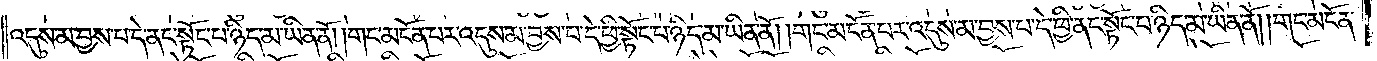འདུས་མ་བྱས་པ་དེ་ནང་སྟོང་པ་ཉིད་མ་ཡིན་ནོ། །གང་མངོན་པར་འདུས་མ་བྱས་པ་དེ་ཕྱི་སྟོང་པ་ཉིད་མ་ཡིན་ནོ། །གང་མངོན་པར་འདུས་མ་བྱས་པ་དེ་ཕྱི་ནང་སྟོང་པ་ཉིད་མ་ཡིན་ནོ། །གང་མངོན་
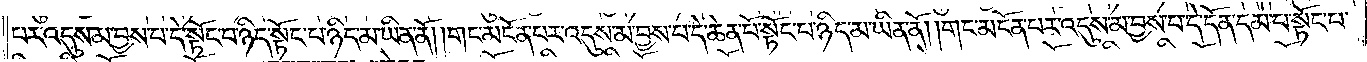པར་འདུས་མ་བྱས་པ་དེ་སྟོང་པ་ཉིད་སྟོང་པ་ཉིད་མ་ཡིན་ནོ། །གང་མངོན་པར་འདུས་མ་བྱས་པ་དེ་ཆེན་པོ་སྟོང་པ་ཉིད་མ་ཡིན་ནོ། །གང་མངོན་པར་འདུས་མ་བྱས་པ་དེ་དོན་དམ་པ་སྟོང་པ་
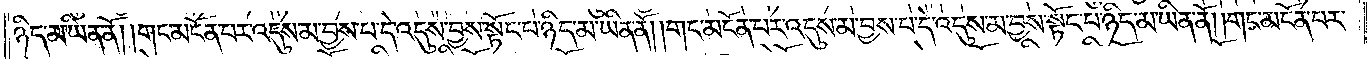ཉིད་མ་ཡིན་ནོ། །གང་མངོན་པར་འདུས་མ་བྱས་པ་དེ་འདུས་བྱས་སྟོང་པ་ཉིད་མ་ཡིན་ནོ། །གང་མངོན་པར་འདུས་མ་བྱས་པ་དེ་འདུས་མ་བྱས་སྟོང་པ་ཉིད་མ་ཡིན་ནོ། །གང་མངོན་པར་འདུས་མ་
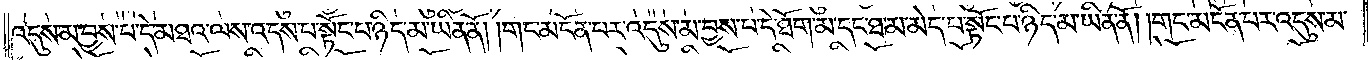བྱས་པ་དེ་མཐའ་ལས་འདས་པ་སྟོང་པ་ཉིད་མ་ཡིན་ནོ། །གང་མངོན་པར་འདུས་མ་བྱས་པ་དེ་ཐོག་མ་དང་ཐ་མ་མེད་པའི་སྟོང་པ་ཉིད་མ་ཡིན་ནོ། །གང་མངོན་པར་
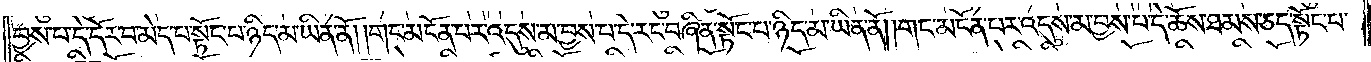འདུས་མ་བྱས་པ་དེ་དོར་བ་མེད་པ་སྟོང་པ་ཉིད་མ་ཡིན་ནོ། །གང་མངོན་པར་འདུས་མ་བྱས་པ་དེ་རང་བཞིན་སྟོང་པ་ཉིད་མ་ཡིན་ནོ། །གང་མངོན་པར་འདུས་མ་བྱས་པ་དེ་ཆོས་ཐམས་ཅད་སྟོང་པ་
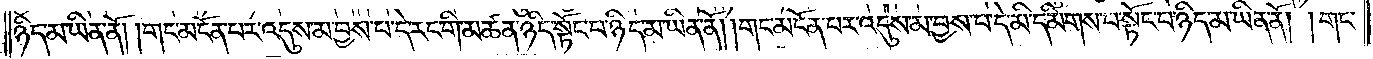ཉིད་མ་ཡིན་ནོ། །གང་མངོན་པར་འདུས་མ་བྱས་པ་དེ་རང་གི་མཚན་ཉིད་སྟོང་པ་ཉིད་མ་ཡིན་ནོ། །གང་མངོན་པར་འདུས་མ་བྱས་པ་དེ་མི་དམིགས་པ་སྟོང་པ་ཉིད་མ་ཡིན་ནོ། །གང་
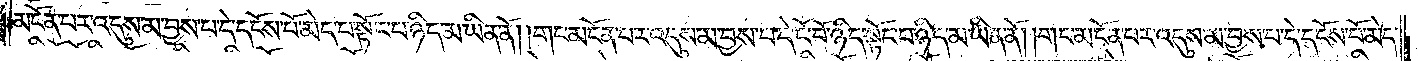མངོན་པར་འདུས་མ་བྱས་པ་དེ་དངོས་པོ་མེད་པ་སྟོང་པ་ཉིད་མ་ཡིན་ནོ། །གང་མངོན་པར་འདུས་མ་བྱས་པ་དེ་ངོ་བོ་ཉིད་སྟོང་པ་ཉིད་མ་ཡིན་ནོ། །གང་མངོན་པར་འདུས་མ་བྱས་པ་དེ་དངོས་པོ་མེད་
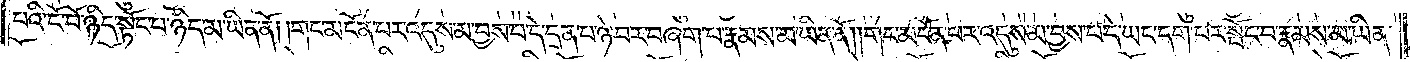པའི་ངོ་བོ་ཉིད་སྟོང་པ་ཉིད་མ་ཡིན་ནོ། །གང་མངོན་པར་འདུས་མ་བྱས་པ་དེ་དྲན་པ་ཉེ་བར་བཞག་པ་རྣམས་མ་ཡིན་ནོ། །གང་མངོན་པར་འདུས་མ་བྱས་པ་དེ་ཡང་དག་པར་སྤོང་བ་རྣམས་མ་ཡིན་
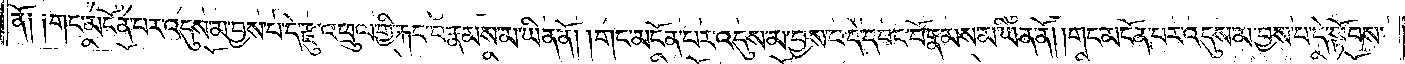ནོ༑༑གང་མངོན་པར་འདུས་མ་བྱས་པ་དེ་རྫུ་འཕྲུལ་གྱི་རྐང་པ་རྣམས་མ་ཡིན་ནོ། །གང་མངོན་པར་འདུས་མ་བྱས་པ་དེ་དབང་པོ་རྣམས་མ་ཡིན་ནོ། །གང་མངོན་པར་འདུས་མ་བྱས་པ་དེ་སྟོབས་
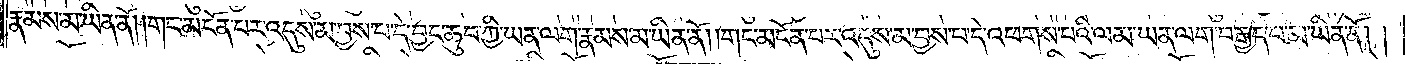རྣམས་མ་ཡིན་ནོ། །གང་མངོན་པར་འདུས་མ་བྱས་པ་དེ་བྱང་ཆུབ་ཀྱི་ཡན་ལག་རྣམས་མ་ཡིན་ནོ། །གང་མངོན་པར་འདུས་མ་བྱས་པ་དེ་འཕགས་པའི་ལམ་ཡན་ལག་བརྒྱད་པ་མ་ཡིན་ནོ། །
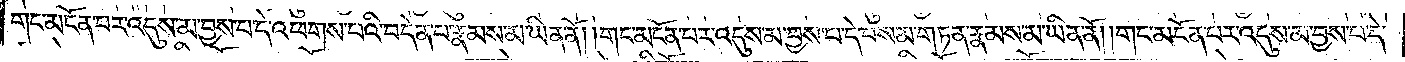གང་མངོན་པར་འདུས་མ་བྱས་པ་དེ་འཕགས་པའི་བདེན་པ་རྣམས་མ་ཡིན་ནོ། །གང་མངོན་པར་འདུས་མ་བྱས་པ་དེ་བསམ་གཏན་རྣམས་མ་ཡིན་ནོ། །གང་མངོན་པར་འདུས་མ་བྱས་པ་དེ་
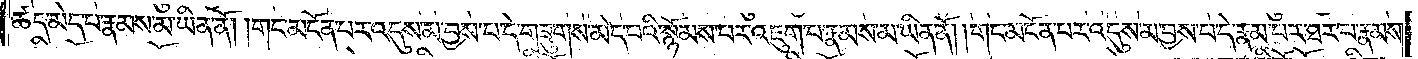ཚད་མེད་པ་རྣམས་མ་ཡིན་ནོ། །གང་མངོན་པར་འདུས་མ་བྱས་པ་དེ་གཟུགས་མེད་པའི་སྙོམས་པར་འཇུག་པ་རྣམས་མ་ཡིན་ནོ། །གང་མངོན་པར་འདུས་མ་བྱས་པ་དེ་རྣམ་པར་ཐར་པ་རྣམས་
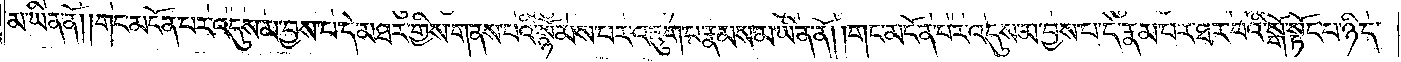མ་ཡིན་ནོ། །གང་མངོན་པར་འདུས་མ་བྱས་པ་དེ་མཐར་གྱིས་གནས་པའི་སྙོམས་པར་འཇུག་པ་རྣམས་མ་ཡིན་ནོ། །གང་མངོན་པར་འདུས་མ་བྱས་པ་དེ་རྣམ་པར་ཐར་པའི་སྒོ་སྟོང་པ་ཉིད་
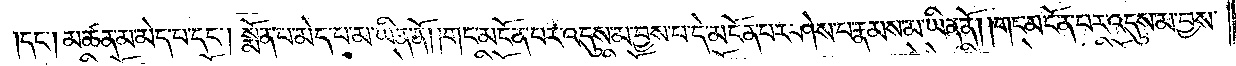དང༌། མཚན་མ་མེད་པ་དང༌། སྨོན་པ་མེད་པ་མ་ཡིན་ནོ། །གང་མངོན་པར་འདུས་མ་བྱས་པ་དེ་མངོན་པར་ཤེས་པ་རྣམས་མ་ཡིན་ནོ། །གང་མངོན་པར་འདུས་མ་བྱས་པ་
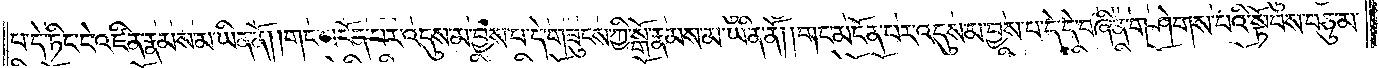དེ་ཏིང་ངེ་འཛིན་རྣམས་མ་ཡིན་ནོ། །གང་མངོན་པར་འདུས་མ་བྱས་པ་དེ་གཟུངས་ཀྱི་སྒོ་རྣམས་མ་ཡིན་ནོ། །གང་མངོན་པར་འདུས་མ་བྱས་པ་དེ་དེ་བཞིན་གཤེགས་པའི་སྟོབས་བཅུ་མ་
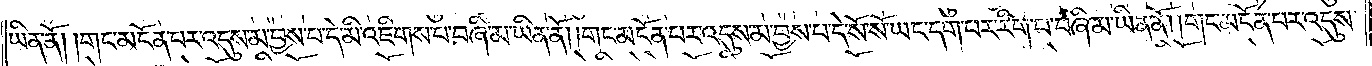ཡིན་ནོ། །གང་མངོན་པར་འདུས་མ་བྱས་པ་དེ་མི་འཇིགས་པ་བཞི་མ་ཡིན་ནོ། །གང་མངོན་པར་འདུས་མ་བྱས་པ་དེ་སོ་སོ་ཡང་དག་པར་རིག་པ་བཞི་མ་ཡིན་ནོ། །གང་མངོན་པར་འདུས་
